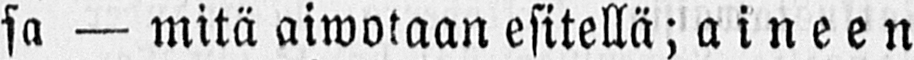sa — mitä aiwotaan esitellä; aineen
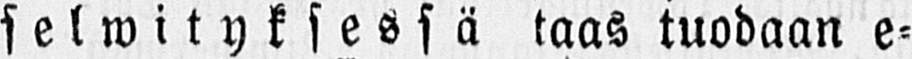selwityksessä taas tuodaan e-
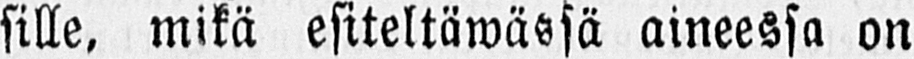sille, mikä esiteltäwässä aineessa on
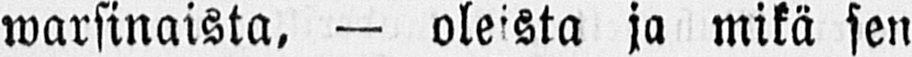warsinaista, — oleista ja mikä sen
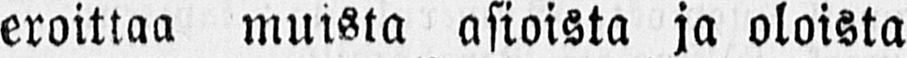eroittaa muista asioista ja oloista
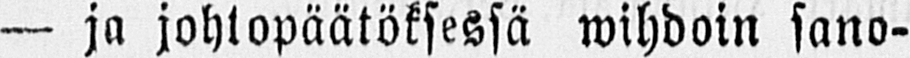— ja johtopäätöksessä wihdoin sano-
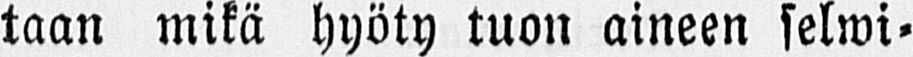taan mikä hyöty tuon aineen selwi-
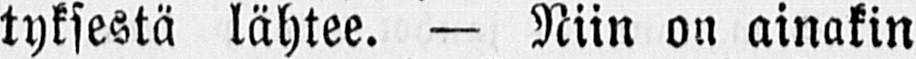tyksestä lähtee. — Niin on ainakin
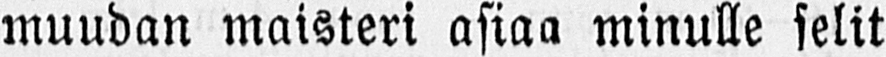muudan maisteri asiaa minulle selit
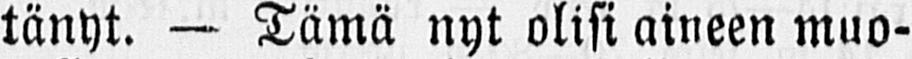tänyt. — Tämä nyt olisi aineen muo-
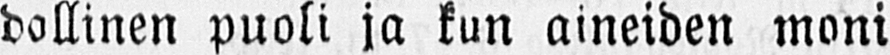dollinen puoli ja kun aineiden moni
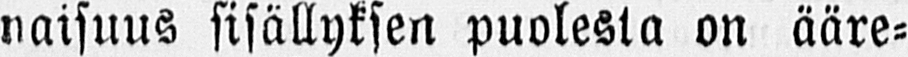naisuus sisällyksen puolesta on ääre-
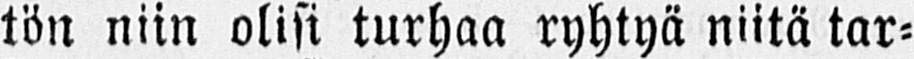tön niin olisi turhaa ryhtyä niitä tar-
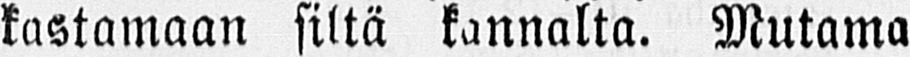kastamaan siltä kannalta. Mutama
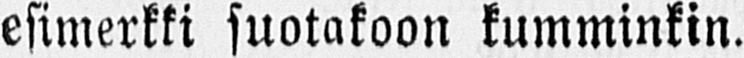esimerkki suotakoon kumminkin.
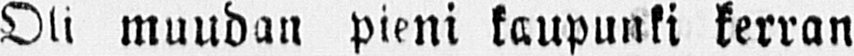Oli muudan pieni kaupunki kerran
